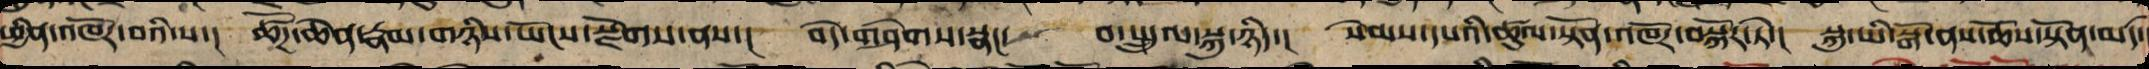ཕྱིན་འཁོར་བའི་ས་།  ཚོཌ་ཆེན་རྣམ་གཉིས་ཡོངས་སྫོགས་ནས་།  བདེ་གཤེགས་སྣང་  བ་སྤྲུལ་སྐུ་ཉིད་།  སེམས་དཔའི་ཚུལ་སྟོན་འཁོར་བསྐོར་ཏེ་།  སྐུ་ཡི་སྒོ་ནས་ཆོས་སྟོན་མཛད་
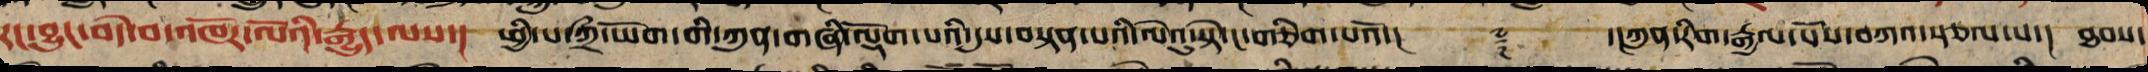རང་བྱུང་བདེ་བའི་འཁོར་ལོའི་རྒྱུད་ལས་། ཕྱི་པ་ཀྲྀ་ཡོག་གི་ཀུན་གཞི་ལྡོག་པའི་དུས་བསྟན་པའི་ལེའུ་སྟེ་ང་གཅིག་པའོ་།།     ༈     ་།།ཀུན་རིག་རྒྱལ་པོས་བཀའ་སྩལ་པ་། ཐབས་
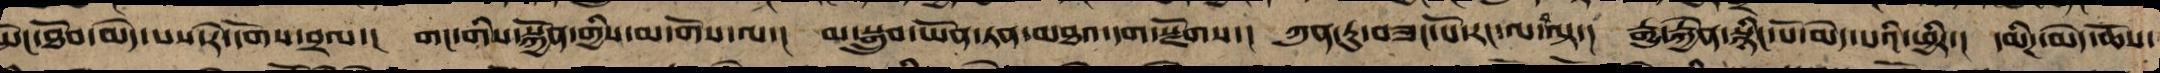སེང་ཐོབ་མེད་པས་རེ་དོགས་བྲལ་། གང་གིས་སྐྱོན་གྱིས་མ་གོས་ལ་། མ་སྒྲུབ་ཡོན་ཏན་མཐའ་དག་སྫོགས་། ཀུན་ཏུ་བཟང་པོ་རང་ལ་ལྟ་། རྒྱུ་རྐྱེན་སྙིང་པོ་མེད་པའི་ཕྱིར་།  དམིཌ་མེད་ཆོས་
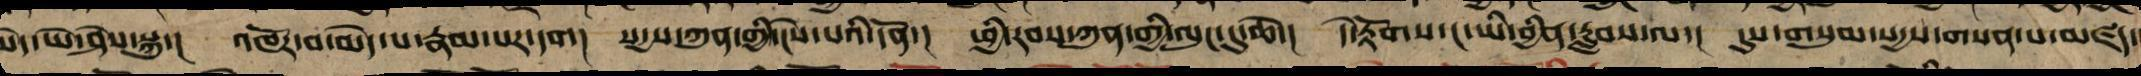མེད་ཡེ་ཤེས་སྐུ་།  འཁོར་བ་མེད་པ་རྣམ་པར་དག། སདྱས་ཀུན་གྱི་ངེས་པའི་དོན་། ཕྱི་རབས་ཀུན་གྱི་ལུང་དུ་ཆེ་།  དེ་རྟོགས་ང་ཡི་བྱིན་རླབས་ལ་།  དུས་གསུམ་སདྱས་གསན་པ་མཛད་
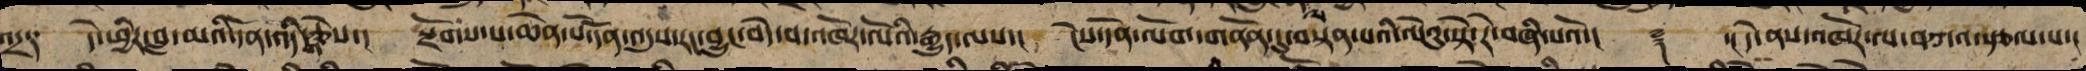འདྲ༑  དེ་ཕྱིར་བླ་མའི་དོན་འདི་གཅེས་།  སྫོགས་པ་ཆེན་པོ་དོན་འདུས་རང་བྱུང་བདེ་བའི་འཁོར་ལོའི་རྒྱུད་ལས་།   ངེས་དོན་ལོག་གནོན་དུ་བསྟན་པའི་ལེའུ་སྟེ་རེ་བཞི་པའོ་།། ༈ ་།།དེ་ནས་འཁོར་ལ་བཀའ་སྩལ་པ་།
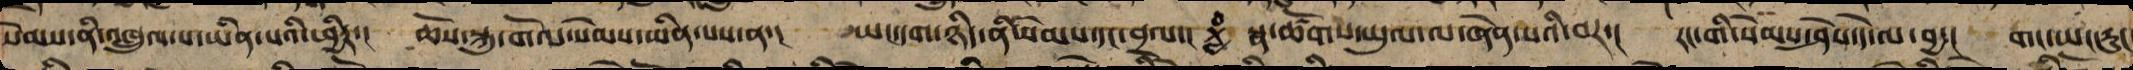སེམས་ནི་འཁྲུལ་པ་ཡིན་པའི་ཕྱིར་། ཆོས་ཀུན་གོལ་སེམས་ཡིན་པས་ན་། ཡང་དག་ཉིད་ནི་སེམས་དང་བྲལ་། སྣ་ཚོགས་ཡུལ་ལ་ཞེན་པའི་བར་།  རང་གི་སེམས་ཤེས་དེ་ལ་བྱ་།  གང་ཡང་རུང
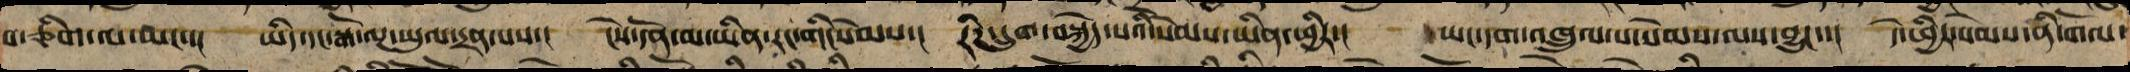བ་ཅིག་ལ་ཡང་་།  ཡིད་དང་སྒོ་ལྔ་ཡུལ་དྲན་པས་།  ངེས་དོན་མ་ཡིན་རང་གི་སེམས་།  རིཌ་དྲུག་བསྐྱེད་པའི་སེམས་ཡིན་ཕྱིར་།  ཡང་དག་འཁྲུལ་པ་སེམས་ལས་བྱུང་་།  དེ་ཕྱིར་སེམས་ནི་གོལ་
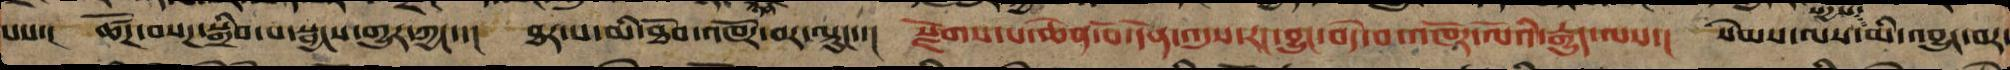པས་།  ཚོཌ་བསཌ་སྒྲིབ་པ་སྦྱངས་གྱུར་ཀྱང་་།  ཐར་པ་མི་ཐོབ་འཁོར་བར་ལྟུང་་།  སྫོགས་པ་ཆེན་པོ་དོན་འདུས་རང་བྱུང་བདེ་བ་འཁོར་ལོའི་རྒྱུད་ལས་། སེམས་ལས་སདྱས་མི་འབྱུང་བར་
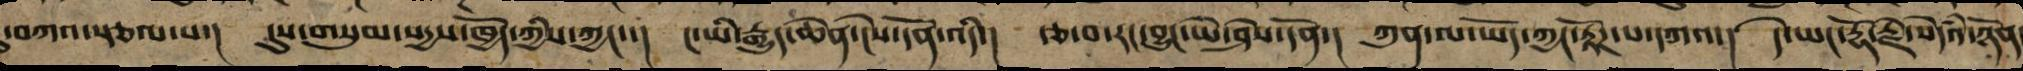་བཀའ་སྩལ་པ་།  དུས་གསུམ་སདྱས་ཁྱོད་ཀྱིས་ཀྱང་་།  ང་ཡི་རྒྱུད་ཆེན་ངེས་དོན་འདི་།  རྩ་བ་རང་བྱུང་ཡེ་ཤེས་དོན་།  ཀུན་ལ་ཡོད་ཀྱང་རྟོཌ་པ་དཀའ་།  དེ་ཡང་རྡོ་རྗེ་སེདཾའ་ཉོན
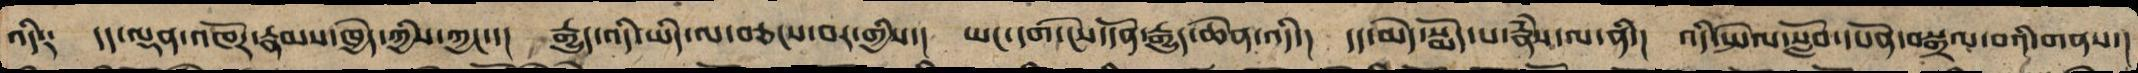འདི༑ དད་ལྡན་འཁོར་རྣམས་ཁྱེད་ཀྱིས་ཀྱང་། རྒྱུད་འདི་ཡིད་ལ་བཅངས་བར་གྱིས་།  ཡང་དག་ངེས་དོན་རྒྱུད་ཆེན་འདི་།  དད་མེད་སྨོད་པ་རྣཾས་ལ་ནི་། འདི་སྤེལ་སློབ་དཔོན་བསྒྲལ་བའི་གནས་།
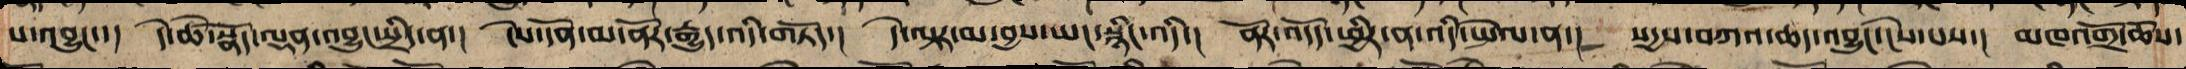པ་འབྱུང་་། དེ་ཚེ་སྣོད་ལྡན་འབྱུང་སྲིད་ན།  ངེས་དོན་མ་ནོར་རྒྱུད་འདི་གཏོད་།  དེ་ལྟར་མ་བྱས་ཡང་སྙིང་འདི་། ནོར་འདོད་ཕྱིར་ན་འདི་སྤེལ་ན་། སདྱས་བཀའ་ཆད་འབྱུང་ངེས་པས་། མཁའགྲོ་ཆོས་
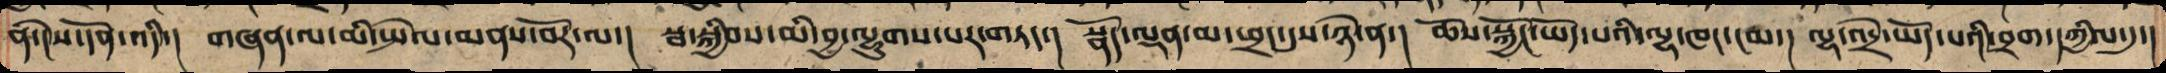ན་ངེས་དོན་འདི་།  གཞན་ལ་མི་སྤེལ་མནས་བོར་ལ་། སྦ་སྐྱིབས་མི་བྱ་ལྷུགས་པར་གཏད་། སྣོད་ལྡན་མ་ཕྲད་དུས་ཉེ་ན་། ཆོས་སྐྱོང་ཡོད་པའི་ལྷ་ཁང་ངམ་། ལྷ་འདྲེ་ཡོད་པའི་བྲག་དཀྱིལ་དུ་།
